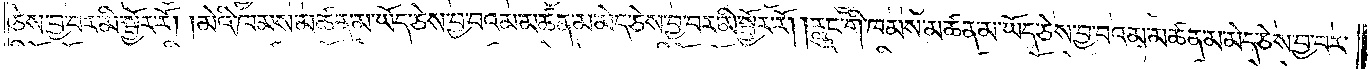ཅེས་བྱ་བར་མི་སྦྱོར་རོ། །མེའི་ཁམས་མཚན་མ་ཡོད་ཅེས་བྱ་བའམ་མཚན་མ་མེད་ཅེས་བྱ་བར་མི་སྦྱོར་རོ། །རླུང་གི་ཁམས་མཚན་མ་ཡོད་ཅེས་བྱ་བའམ་མཚན་མ་མེད་ཅེས་བྱ་བར་
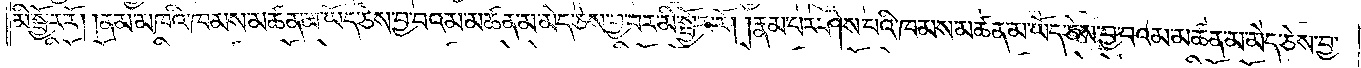མི་སྦྱོར་རོ། །ནམ་མཁའི་ཁམས་མཚན་མ་ཡོད་ཅེས་བྱ་བའམ་མཚན་མ་མེད་ཅེས་བྱ་བར་མི་སྦྱོར་རོ། །རྣམ་པར་ཤེས་པའི་ཁམས་མཚན་མ་ཡོད་ཅེས་བྱ་བའམ་མཚན་མ་མེད་ཅེས་བྱ་
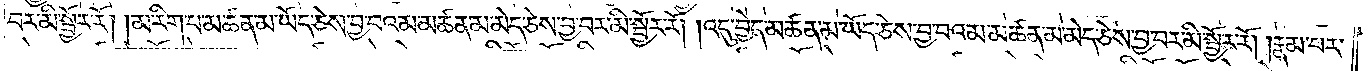བར་མི་སྦྱོར་རོ། །མ་རིག་པ་མཚན་མ་ཡོད་ཅེས་བྱ་བའམ་མཚན་མ་མེད་ཅེས་བྱ་བར་མི་སྦྱོར་རོ། །འདུ་བྱེད་མཚན་མ་ཡོད་ཅེས་བྱ་བའམ་མཚན་མ་མེད་ཅེས་བྱ་བར་མི་སྦྱོར་རོ། །རྣམ་པར་
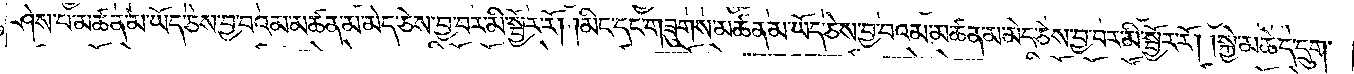ཤེས་པ་མཚན་མ་ཡོད་ཅེས་བྱ་བའམ་མཚན་མ་མེད་ཅེས་བྱ་བར་མི་སྦྱོར་རོ། །མིང་དང་གཟུགས་མཚན་མ་ཡོད་ཅེས་བྱ་བའམ་མཚན་མ་མེད་ཅེས་བྱ་བར་མི་སྦྱོར་རོ། །སྐྱེ་མཆེད་དྲུག་
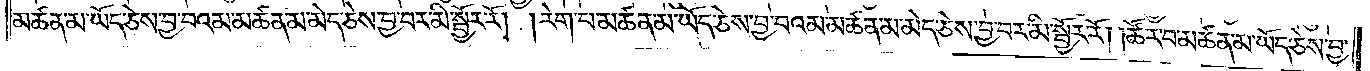མཚན་མ་ཡོད་ཅེས་བྱ་བའམ་མཚན་མ་མེད་ཅེས་བྱ་བར་མི་སྦྱོར་རོ། །རེག་པ་མཚན་མ་ཡོད་ཅེས་བྱ་བའམ་མཚན་མ་མེད་ཅེས་བྱ་བར་མི་སྦྱོར་རོ། །ཚོར་བ་མཚན་མ་ཡོད་ཅེས་བྱ་
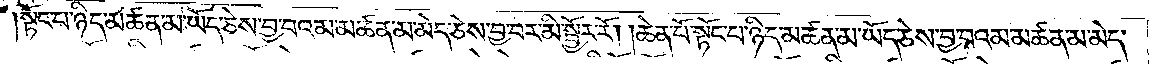སྟོང་པ་ཉིད་མཚན་མ་ཡོད་ཅེས་བྱ་བའམ་མཚན་མ་མེད་ཅེས་བྱ་བར་མི་སྦྱོར་རོ། །ཆེན་པོ་སྟོང་པ་ཉིད་མཚན་མ་ཡོད་ཅེས་བྱ་བའམ་མཚན་མ་མེད་
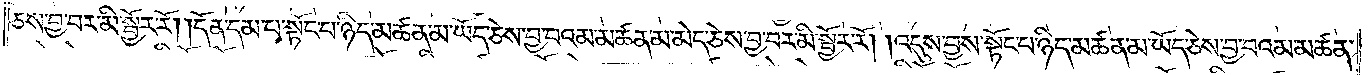ཅེས་བྱ་བར་མི་སྦྱོར་རོ། །དོན་དམ་པ་སྟོང་པ་ཉིད་མཚན་མ་ཡོད་ཅེས་བྱ་བའམ་མཚན་མ་མེད་ཅེས་བྱ་བར་མི་སྦྱོར་རོ། །འདུས་བྱས་སྟོང་པ་ཉིད་མཚན་མ་ཡོད་ཅེས་བྱ་བའམ་མཚན་
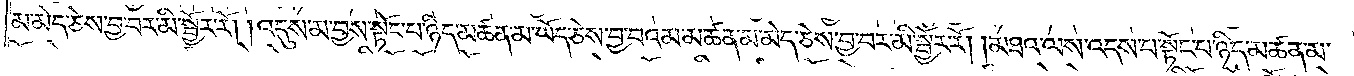མ་མེད་ཅེས་བྱ་བར་མི་སྦྱོར་རོ། །འདུས་མ་བྱས་སྟོང་པ་ཉིད་མཚན་མ་ཡོད་ཅེས་བྱ་བའམ་མཚན་མ་མེད་ཅེས་བྱ་བར་མི་སྦྱོར་རོ། །མཐའ་ལས་འདས་པ་སྟོང་པ་ཉིད་མཚན་མ་
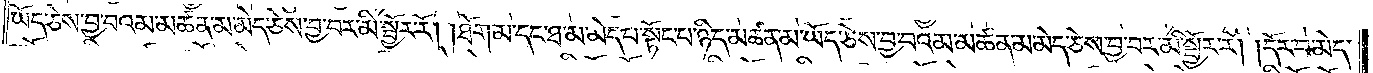ཡོད་ཅེས་བྱ་བའམ་མཚན་མ་མེད་ཅེས་བྱ་བར་མི་སྦྱོར་རོ། །ཐོག་མ་དང་ཐ་མ་མེད་པ་སྟོང་པ་ཉིད་མཚན་མ་ཡོད་ཅེས་བྱ་བའམ་མཚན་མ་མེད་ཅེས་བྱ་བར་མི་སྦྱོར་རོ། །དོར་བ་མེད་
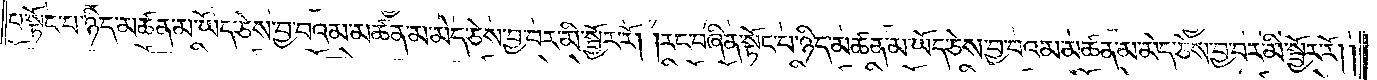པ་སྟོང་པ་ཉིད་མཚན་མ་ཡོད་ཅེས་བྱ་བའམ་མཚན་མ་མེད་ཅེས་བྱ་བར་མི་སྦྱོར་རོ། །རང་བཞིན་སྟོང་པ་ཉིད་མཚན་མ་ཡོད་ཅེས་བྱ་བའམ་མཚན་མ་མེད་ཅེས་བྱ་བར་མི་སྦྱོར་རོ༎
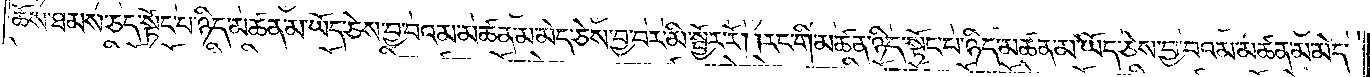ཆོས་ཐམས་ཅད་སྟོང་པ་ཉིད་མཚན་མ་ཡོད་ཅེས་བྱ་བའམ་མཚན་མ་མེད་ཅེས་བྱ་བར་མི་སྦྱོར་རོ། །རང་གི་མཚན་ཉིད་སྟོང་པ་ཉིད་མཚན་མ་ཡོད་ཅེས་བྱ་བའམ་མཚན་མ་མེད་
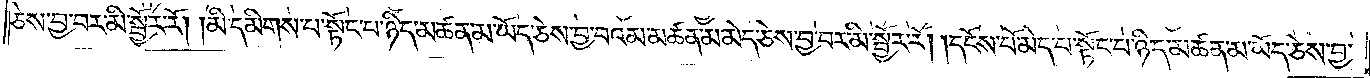ཅེས་བྱ་བར་མི་སྦྱོར་རོ། །མི་དམིགས་པ་སྟོང་པ་ཉིད་མཚན་མ་ཡོད་ཅེས་བྱ་བའམ་མཚན་མ་མེད་ཅེས་བྱ་བར་མི་སྦྱོར་རོ། །དངོས་པོ་མེད་པ་སྟོང་པ་ཉིད་མཚན་མ་ཡོད་ཅེས་བྱ་
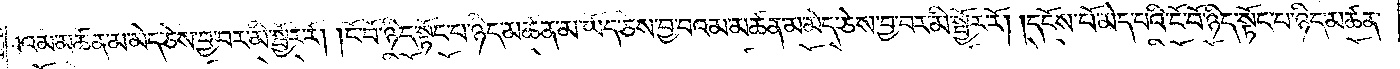བའམ་མཚན་མ་མེད་ཅེས་བྱ་བར་མི་སྦྱོར་རོ། །ངོ་བོ་ཉིད་སྟོང་པ་ཉིད་མཚན་མ་ཡོད་ཅེས་བྱ་བའམ་མཚན་མ་མེད་ཅེས་བྱ་བར་མི་སྦྱོར་རོ། །དངོས་པོ་མེད་པའི་ངོ་བོ་ཉིད་སྟོང་པ་ཉིད་མཚན་
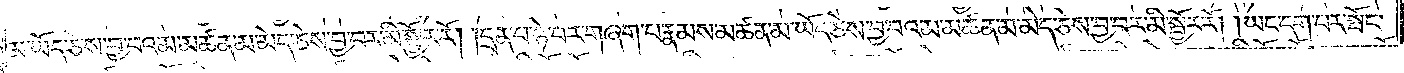མ་ཡོད་ཅེས་བྱ་བའམ་མཚན་མ་མེད་ཅེས་བྱ་བར་མི་སྦྱོར་རོ། །དྲན་པ་ཉེ་བར་གཞག་པ་རྣམས་མཚན་མ་ཡོད་ཅེས་བྱ་བའམ་མཚན་མ་མེད་ཅེས་བྱ་བར་མི་སྦྱོར་རོ། །ཡང་དག་པར་སྤོང་
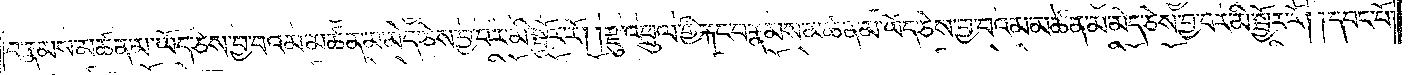བ་རྣམས་མཚན་མ་ཡོད་ཅེས་བྱ་བའམ་མཚན་མ་མེད་ཅེས་བྱ་བར་མི་སྦྱོར་རོ། །རྫུ་འཕྲུལ་གྱི་རྐང་པ་རྣམས་མཚན་མ་ཡོད་ཅེས་བྱ་བའམ་མཚན་མ་མེད་ཅེས་བྱ་བར་མི་སྦྱོར་རོ། །དབང་པོ་
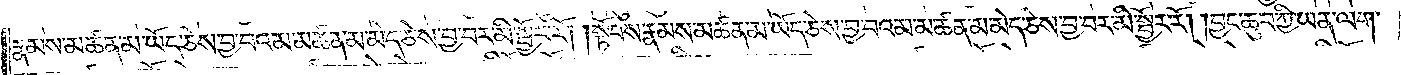རྣམས་མཚན་མ་ཡོད་ཅེས་བྱ་བའམ་མཚན་མ་མེད་ཅེས་བྱ་བར་མི་སྦྱོར་རོ། །སྟོབས་རྣམས་མཚན་མ་ཡོད་ཅེས་བྱ་བའམ་མཚན་མ་མེད་ཅེས་བྱ་བར་མི་སྦྱོར་རོ། །བྱང་ཆུབ་ཀྱི་ཡན་ལག་
